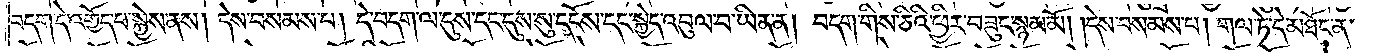བདག་དེ་འགྱོད་པ་སྐྱེས་ནས། དེས་བསམས་པ། དེ་བདག་ལ་དུས་དང་དུས་སུ་དངོས་དང་སྐྱེད་འབུལ་བ་ཡིན་ན། བདག་གིས་ཅིའི་ཕྱིར་བཟུང་སྙམ་མོ། །དེས་བསམས་པ། གལ་ཏེ་དེ་མཐོང་ན་
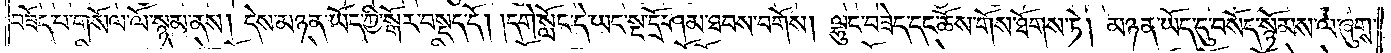བཟོད་པ་གསོལ་ལོ་སྙམ་ནས། དེས་མཉན་ཡོད་ཀྱི་སྒོར་བསྡད་དོ། །དགེ་སློང་དེ་ཡང་སྔ་དྲོ་ཤམ་ཐབས་བགོས། ལྷུང་བཟེད་དང་ཆོས་གོས་ཐོགས་ཏེ། མཉན་ཡོད་དུ་བསོད་སྙོམས་ལ་ཞུགས་
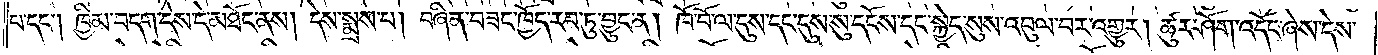པ་དང༌། ཁྱིམ་བདག་དེས་དེ་མཐོང་ནས། དེས་སྨྲས་པ། བཞིན་བཟང་ཁྱོད་རབ་ཏུ་བྱུང་ན། ཁོ་བོ་ལ་དུས་དང་དུས་སུ་དངོས་དང་སྐྱེད་སུས་འབུལ་བར་འགྱུར། ཚུར་ཤོག་འདོང་ཞེས་དེས་
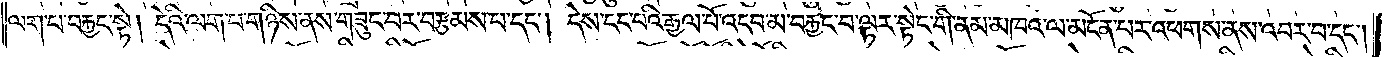ལག་པ་བརྐྱང་སྟེ། དེའི་ལག་པ་གཉིས་ནས་གཟུང་བར་བརྩམས་པ་དང༌། དེས་ངང་པའི་རྒྱལ་པོ་འདབ་མ་བརྐྱང་བ་ལྟར་སྟེང་གི་ནམ་མཁའ་ལ་མངོན་པར་འཕགས་ནས་འབར་བ་དང༌།
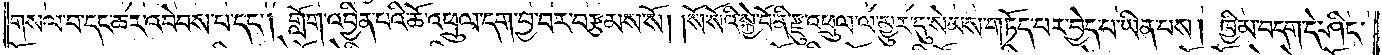གསལ་བ་དང་ཆར་འབེབས་པ་དང༌། གློག་འབྱིན་པའི་ཆོ་འཕྲུལ་དག་བྱ་བར་བརྩམས་སོ། །སོ་སོའི་སྐྱེ་བོ་ནི་རྫུ་འཕྲུལ་ལ་མྱུར་དུ་སེམས་གཏོད་པར་བྱེད་པ་ཡིན་པས། ཁྱིམ་བདག་དེ་ཤིང་
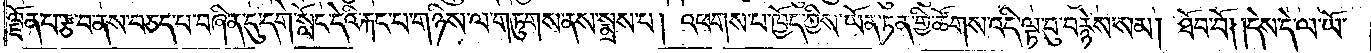ལྗོན་པ་རྩ་བ་ནས་བཅད་པ་བཞིན་དུ་དགེ་སློང་དེའི་རྐང་པ་གཉིས་ལ་གཏུགས་ནས་སྨྲས་པ། འཕགས་པ་ཁྱོད་ཀྱིས་ཡོན་ཏན་གྱི་ཚོགས་འདི་ལྟ་བུ་བརྙེས་སམ། ཐོབ་བོ། །དེས་དེ་ལ་ཡོ་
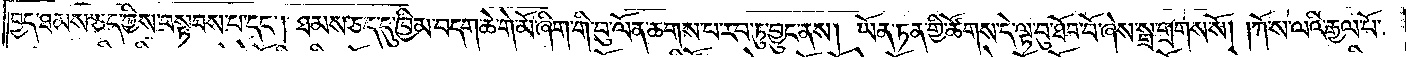བྱད་ཐམས་ཅད་ཀྱིས་བསྟབས་པ་དང༌། ཐམས་ཅད་དུ་ཁྱིམ་བདག་ཆེ་གེ་མོ་ཞིག་གི་བུ་ལོན་ཆགས་པ་རབ་ཏུ་བྱུང་ནས། ཡོན་ཏན་གྱི་ཚོགས་དེ་ལྟ་བུ་ཐོབ་བོ་ཞེས་སྒྲ་གྲགས་སོ། །ཀོ་ས་ལའི་རྒྱལ་པོ་
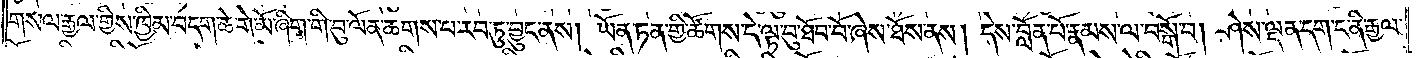གསལ་རྒྱལ་གྱིས་ཁྱིམ་བདག་ཆེ་གེ་མོ་ཞིག་གི་བུ་ལོན་ཆགས་པ་རབ་ཏུ་བྱུང་ནས། ཡོན་ཏན་གྱི་ཚོགས་དེ་ལྟ་བུ་ཐོབ་བོ་ཞེས་ཐོས་ནས། དེས་བློན་པོ་རྣམས་ལ་བསྒོ་བ། ཤེས་ལྡན་དག་ང་ནི་རྒྱལ་
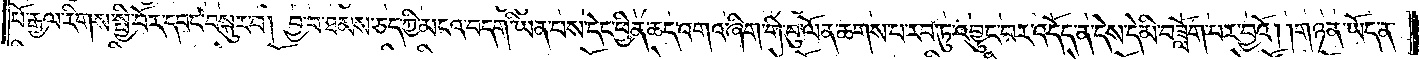པོ་རྒྱལ་རིགས་སྤྱི་བོར་དབང་བསྐུར་བ། བྱ་བ་ཐམས་ཅད་ཀྱི་མངའ་བདག་ཡིན་པས་དེང་ཕྱིན་ཆད་འགའ་ཞིག་གི་བུ་ལོན་ཆགས་པ་རབ་ཏུ་འབྱུང་བར་འདོད་ན་དེས་དེ་མི་བཟློག་པར་བྱའོ། །གཉན་ཡོད་ན་
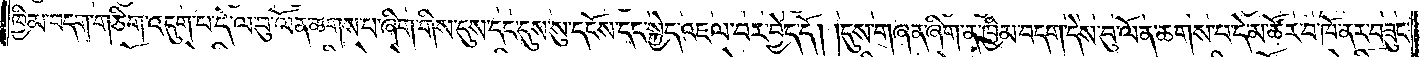ཁྱིམ་བདག་གཅིག་འདུག་པ་དེ་ལ་བུ་ལོན་ཆགས་པ་ཞིག་གིས་དུས་དང་དུས་སུ་དངོས་དང་སྐྱེད་འཇལ་བར་བྱེད་དོ། །དུས་གཞན་ཞིག་ན་ཁྱིམ་བདག་དེས་བུ་ལོན་ཆགས་པ་དེ་མ་ཚོར་བ་ཁོ་ནར་བཟུང་
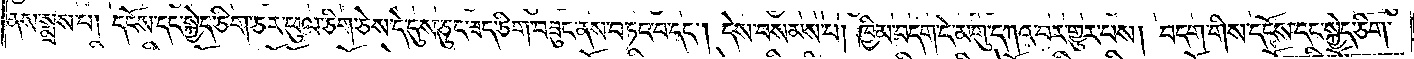ནས་སྨྲས་པ། དངོས་དང་སྐྱེད་ཅིག་ཅར་ཕུལ་ཅིག་ཅེས་དེ་དུས་ཅུང་ཟད་ཅིག་བཟུང་ནས་བཏང་བ་དང༌། དེས་བསམས་པ། ཁྱིམ་བདག་དེ་མགུ་དཀའ་བར་གྱུར་པས། བདག་གིས་དངོས་དང་སྐྱེད་ཅིག་
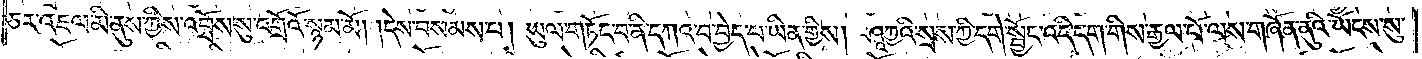ཅར་འཇལ་མི་ནུས་ཀྱིས་འབྲོས་སུ་འགྲོའོ་སྙམ་མོ། །དེས་བསམས་པ། ཡུལ་གཏོང་བ་ནི་དཀའ་བ་བྱེད་པ་ཡིན་གྱིས། ཤཱཀྱའི་སྲས་ཀྱི་དགེ་སྦྱོང་འདི་དག་གིས་རྒྱལ་པོ་ལས་གཞོན་ནུའི་ཡོངས་སུ་
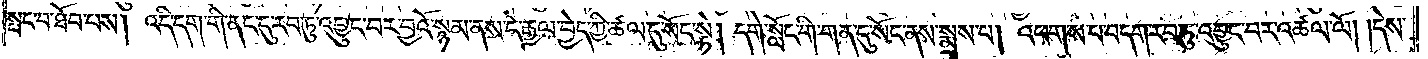སྤང་བ་ཐོབ་པས། འདི་དག་གི་ནང་དུ་རབ་ཏུ་འབྱུང་བར་བྱའོ་སྙམ་ནས་དེ་རྒྱལ་བྱེད་ཀྱི་ཚལ་དུ་སོང་སྟེ། དགེ་སློང་གི་གན་དུ་སོང་ནས་སྨྲས་པ། འཕགས་པ་བདག་རབ་ཏུ་འབྱུང་བར་འཚལ་ལོ། །དེས་
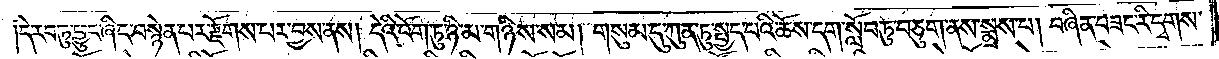དེ་རབ་ཏུ་ཕྱུང་ཞིང་བསྙེན་པར་རྫོགས་པར་བྱས་ནས། དེའི་འོག་ཏུ་ཉི་མ་གཉིས་སམ། གསུམ་དུ་ཀུན་ཏུ་སྤྱད་པའི་ཆོས་དག་སློབ་ཏུ་བཅུག་ནས་སྨྲས་པ། བཞིན་བཟང་རི་དྭགས་
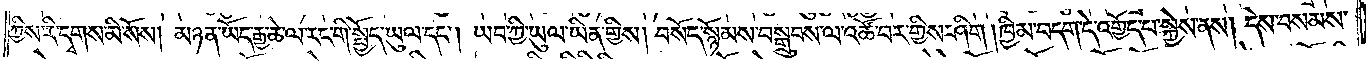ཀྱིས་རི་དྭགས་མི་སོས། མཉན་ཡོད་རྒྱ་ཆེ་ལ་རང་གི་སྤྱོད་ཡུལ་དང༌། ཡབ་ཀྱི་ཡུལ་ཡིན་གྱིས། བསོད་སྙོམས་བསྒྲུབས་ལ་འཚོ་བར་གྱིས་ཤིག །ཁྱིམ་བདག་དེ་འགྱོད་པ་སྐྱེས་ནས། དེས་བསམས་
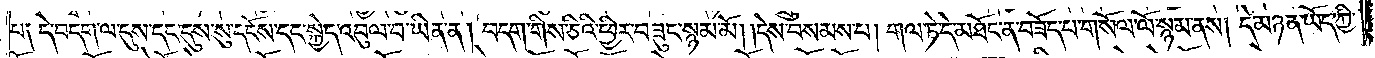པ༑ དེ་བདག་ལ་དུས་དང་དུས་སུ་དངོས་དང་སྐྱེད་འབུལ་བ་ཡིན་ན། བདག་གིས་ཅིའི་ཕྱིར་བཟུང་སྙམ་མོ། །དེས་བསམས་པ། གལ་ཏེ་དེ་མཐོང་ན་བཟོད་པ་གསོལ་ལོ་སྙམ་ནས། དེ་མཉན་ཡོད་ཀྱི་
